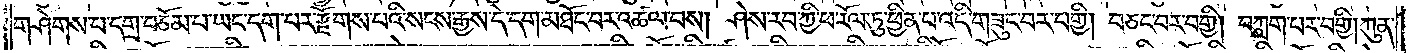གཤེགས་པ་དགྲ་བཅོམ་པ་ཡང་དག་པར་རྫོགས་པའི་སངས་རྒྱས་དེ་དག་མཐོང་བར་འཚལ་བས། ཤེས་རབ་ཀྱི་ཕ་རོལ་ཏུ་ཕྱིན་པ་འདི་གཟུང་བར་བགྱི། བཅང་བར་བགྱི། བཀླག་པར་བགྱི། ཀུན་
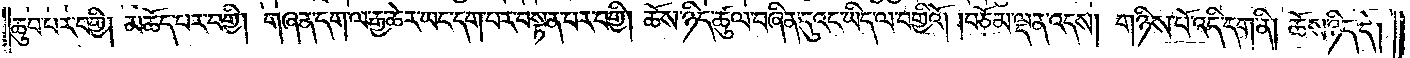ཆུབ་པར་བགྱི། མཆོད་པར་བགྱི། གཞན་དག་ལ་རྒྱ་ཆེར་ཡང་དག་པར་བསྟན་པར་བགྱི། ཆོས་ཉིད་ཚུལ་བཞིན་དུའང་ཡིད་ལ་བགྱིའོ། །བཅོམ་ལྡན་འདས། གཉིས་པོ་འདི་དག་ནི། ཆོས་ཉིད་དེ།
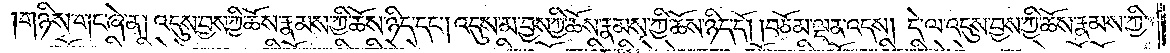གཉིས་གང་ཞེ་ན། འདུས་བྱས་ཆོས་རྣམས་ཀྱི་ཆོས་ཉིད་དང༌། འདུས་མ་བྱས་ཆོས་རྣམས་ཀྱི་ཆོས་ཉིད་དོ། །བཅོམ་ལྡན་འདས། དེ་ལ་འདུས་བྱས་ཆོས་རྣམས་ཀྱི་
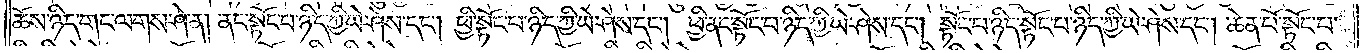ཆོས་ཉིད་གང་ལགས་ཤེ་ན། ནང་སྟོང་པ་ཉིད་ཀྱི་ཡེ་ཤེས་དང༌། ཕྱི་སྟོང་པ་ཉིད་ཀྱི་ཡེ་ཤེས་དང༌། ཕྱི་ནང་སྟོང་པ་ཉིད་ཀྱི་ཡེ་ཤེས་དང༌། སྟོང་པ་ཉིད་སྟོང་པ་ཉིད་ཀྱི་ཡེ་ཤེས་དང༌། ཆེན་པོ་སྟོང་པ་
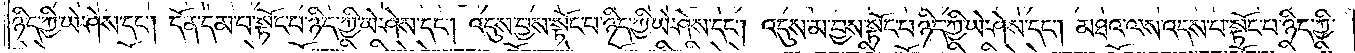ཉིད་ཀྱི་ཡེ་ཤེས་དང༌། དོན་དམ་པ་སྟོང་པ་ཉིད་ཀྱི་ཡེ་ཤེས་དང༌། འདུས་བྱས་སྟོང་པ་ཉིད་ཀྱི་ཡེ་ཤེས་དང༌། འདུས་མ་བྱས་སྟོང་པ་ཉིད་ཀྱི་ཡེ་ཤེས་དང༌། མཐའ་ལས་འདས་པ་སྟོང་པ་ཉིད་ཀྱི་
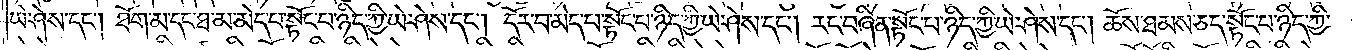ཡེ་ཤེས་དང༌། ཐོག་མ་དང་ཐ་མ་མེད་པ་སྟོང་པ་ཉིད་ཀྱི་ཡེ་ཤེས་དང༌། དོར་བ་མེད་པ་སྟོང་པ་ཉིད་ཀྱི་ཡེ་ཤེས་དང༌། རང་བཞིན་སྟོང་པ་ཉིད་ཀྱི་ཡེ་ཤེས་དང༌། ཆོས་ཐམས་ཅད་སྟོང་པ་ཉིད་ཀྱི་
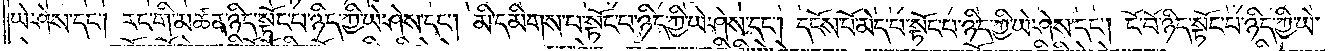ཡེ་ཤེས་དང༌། རང་གི་མཚན་ཉིད་སྟོང་པ་ཉིད་ཀྱི་ཡེ་ཤེས་དང༌། མི་དམིགས་པ་སྟོང་པ་ཉིད་ཀྱི་ཡེ་ཤེས་དང༌། དངོས་པོ་མེད་པ་སྟོང་པ་ཉིད་ཀྱི་ཡེ་ཤེས་དང༌། ངོ་བོ་ཉིད་སྟོང་པ་ཉིད་ཀྱི་ཡེ་
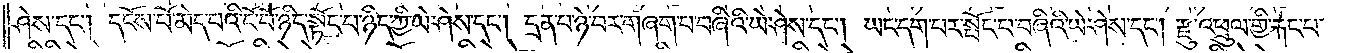ཤེས་དང༌། དངོས་པོ་མེད་པའི་ངོ་བོ་ཉིད་སྟོང་པ་ཉིད་ཀྱི་ཡེ་ཤེས་དང༌། དྲན་པ་ཉེ་བར་གཞག་པ་བཞིའི་ཡེ་ཤེས་དང༌། ཡང་དག་པར་སྤོང་བ་བཞིའི་ཡེ་ཤེས་དང༌། རྫུ་འཕྲུལ་གྱི་རྐང་པ་
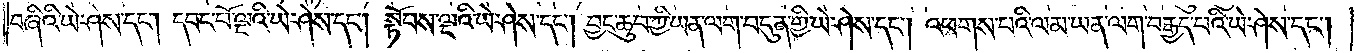བཞིའི་ཡེ་ཤེས་དང༌། དབང་པོ་ལྔའི་ཡེ་ཤེས་དང༌། སྟོབས་ལྔའི་ཡེ་ཤེས་དང༌། བྱང་ཆུབ་ཀྱི་ཡན་ལག་བདུན་གྱི་ཡེ་ཤེས་དང༌། འཕགས་པའི་ལམ་ཡན་ལག་བརྒྱད་པའི་ཡེ་ཤེས་དང༌།
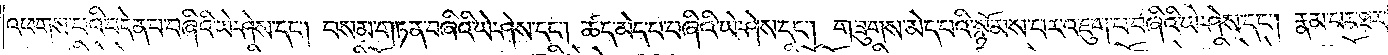འཕགས་པའི་བདེན་པ་བཞིའི་ཡེ་ཤེས་དང༌། བསམ་གཏན་བཞིའི་ཡེ་ཤེས་དང༌། ཚད་མེད་པ་བཞིའི་ཡེ་ཤེས་དང༌། གཟུགས་མེད་པའི་སྙོམས་པར་འཇུག་པ་བཞིའི་ཡེ་ཤེས་དང༌། རྣམ་པར་ཐར་
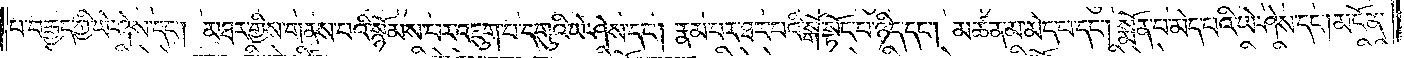པ་བརྒྱད་ཀྱི་ཡེ་ཤེས་དང༌། མཐར་གྱིས་གནས་པའི་སྙོམས་པར་འཇུག་པ་དགུའི་ཡེ་ཤེས་དང༌། རྣམ་པར་ཐར་པའི་སྒོ་སྟོང་པ་ཉིད་དང༌། མཚན་མ་མེད་པ་དང་། སྨོན་པ་མེད་པའི་ཡེ་ཤེས་དང༌། མངོན་
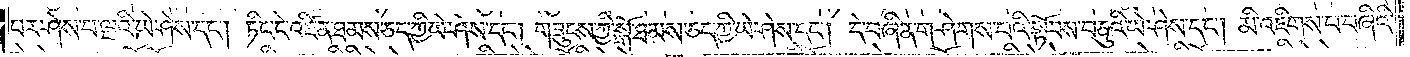པར་ཤེས་པ་ལྔའི་ཡེ་ཤེས་དང༌། ཏིང་ངེ་འཛིན་ཐམས་ཅད་ཀྱི་ཡེ་ཤེས་དང༌། གཟུངས་ཀྱི་སྒོ་ཐམས་ཅད་ཀྱི་ཡེ་ཤེས་དང༌། དེ་བཞིན་གཤེགས་པའི་སྟོབས་བཅུའི་ཡེ་ཤེས་དང༌། མི་འཇིགས་པ་བཞིའི་
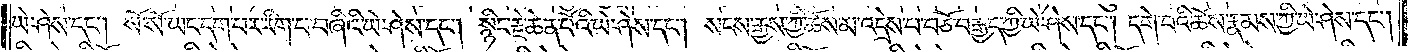ཡེ་ཤེས་དང༌། སོ་སོ་ཡང་དག་པར་རིག་པ་བཞིའི་ཡེ་ཤེས་དང༌། སྙིང་རྗེ་ཆེན་པོའི་ཡེ་ཤེས་དང༌། སངས་རྒྱས་ཀྱི་ཆོས་མ་འདྲེས་པ་བཅོ་བརྒྱད་ཀྱི་ཡེ་ཤེས་དང༌། དགེ་བའི་ཆོས་རྣམས་ཀྱི་ཡེ་ཤེས་དང༌།
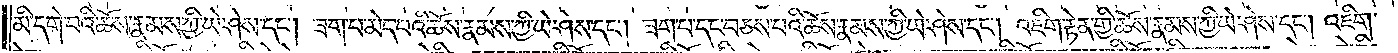མི་དགེ་བའི་ཆོས་རྣམས་ཀྱི་ཡེ་ཤེས་དང༌། ཟག་པ་མེད་པའི་ཆོས་རྣམས་ཀྱི་ཡེ་ཤེས་དང༌། ཟག་པ་དང་བཅས་པའི་ཆོས་རྣམས་ཀྱི་ཡེ་ཤེས་དང༌། འཇིག་རྟེན་གྱི་ཆོས་རྣམས་ཀྱི་ཡེ་ཤེས་དང༌། འཇིག་
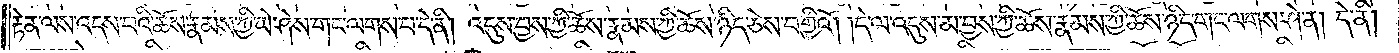རྟེན་ལས་འདས་པའི་ཆོས་རྣམས་ཀྱི་ཡེ་ཤེས་གང་ལགས་པ་དེ་ནི། འདུས་བྱས་ཀྱི་ཆོས་རྣམས་ཀྱི་ཆོས་ཉིད་ཅེས་བགྱིའོ། །དེ་ལ་འདུས་མ་བྱས་ཀྱི་ཆོས་རྣམས་ཀྱི་ཆོས་ཉིད་གང་ལགས་ཤེ་ན། དེ་ནི་
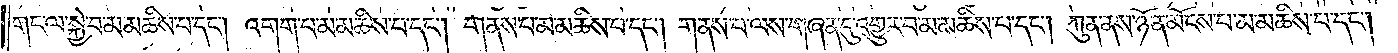གང་ལ་སྐྱེ་བ་མ་མཆིས་པ་དང༌། འགག་པ་མ་མཆིས་པ་དང༌། གནས་པ་མ་མཆིས་པ་དང༌། གནས་པ་ལས་གཞན་དུ་འགྱུར་བ་མ་མཆིས་པ་དང༌། ཀུན་ནས་ཉོན་མོངས་པ་མ་མཆིས་པ་དང༌།
